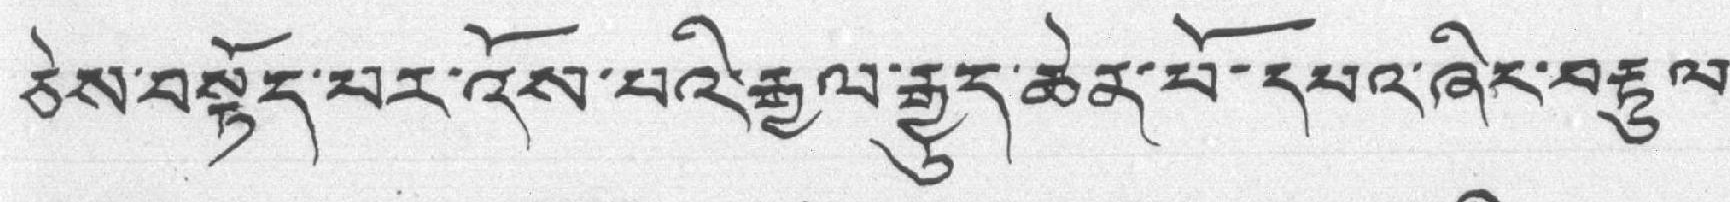ཅེས་བསྟོད་པར་འོས་པའི་རྒྱལ་རྒྱུད་ཆེན་པོ་དཔའ་ཞིང་བརྟུལ་
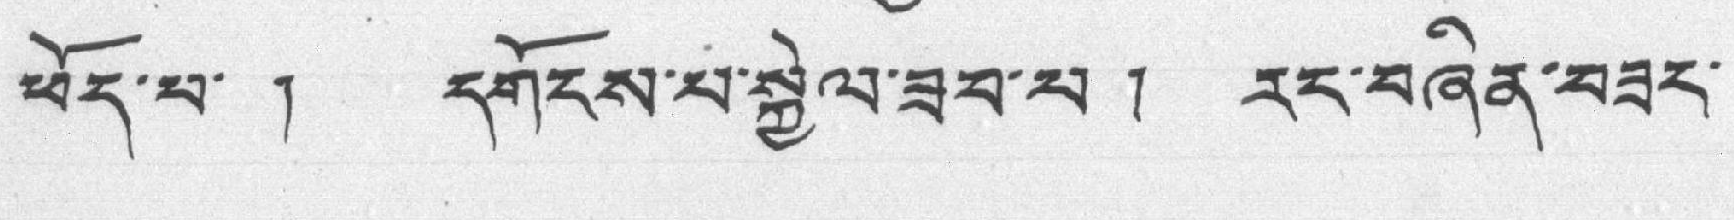ཕོད་པ་ ། དགོངས་པ་སྐྱེལ་ཟབ་པ། རང་བཞིན་བཟང་
